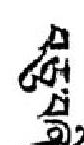བཅུ་བཞི་
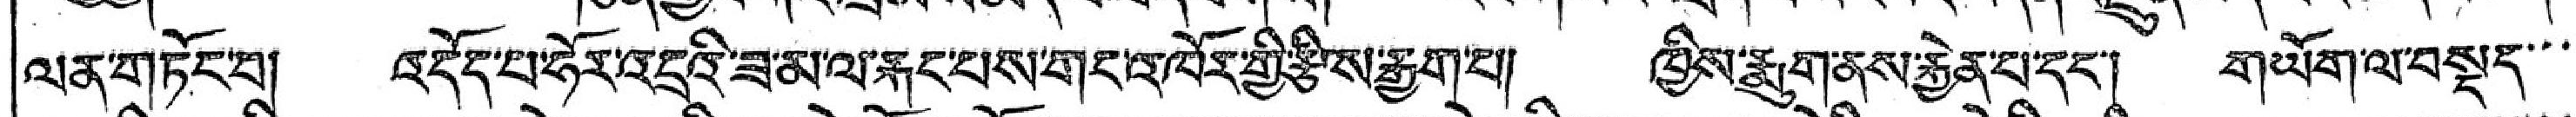ལན་གཏོང་བ། འདོད་པ་ཧོར་འདྲའི་ཟ་མ་ལ་རྐང་པས་གང་འཁོར་གྱི་རྩིས་རྒྱག་པ། ཁྱིས་རྨུག་ནས་རྐྱེན་པ་དང་། གཡོག་ལ་བསྡད་་་
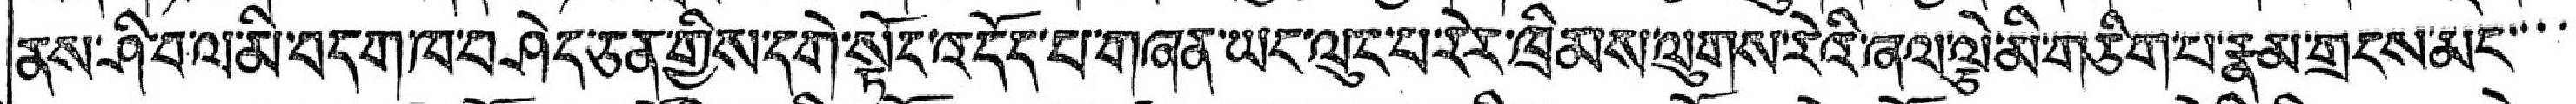ནས་ཤི་བ་ལ་མི་བདག་ཁ་བཤེད་ཅན་གྱིས་དགེ་སྟོང་འདོད་པ་གཞན་ཡང་ལུང་པ་རེར་ཁྲིམས་ལུགས་རེའི་ཞལ་ལྕེ་མི་གཅིག་པ་རྣམ་གྲངས་མང་་་་
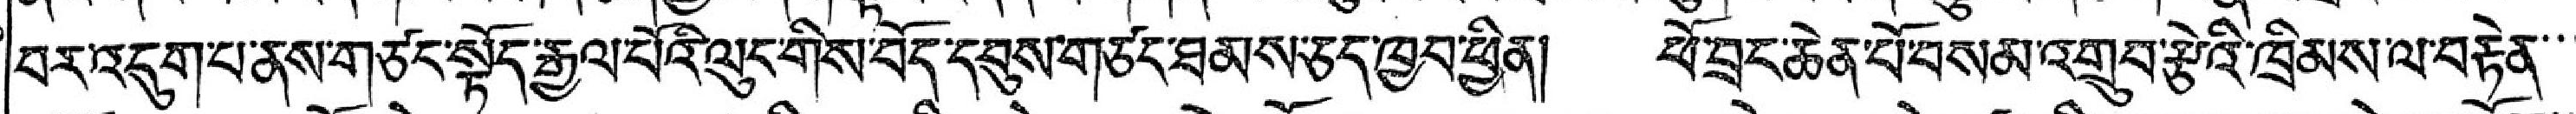བར་འདུག་པ་ནས་གཙང་སྟོད་རྒྱལ་པོའི་ལུང་གིས་བོད་དབུས་གཙང་ཐམས་ཅད་ཁྱབ་ཕྱིན། ཕོ་བྲང་ཆེན་པོ་བསམ་འགྲུབ་རྩེའི་ཁྲིམས་ལ་བརྟེན་་་
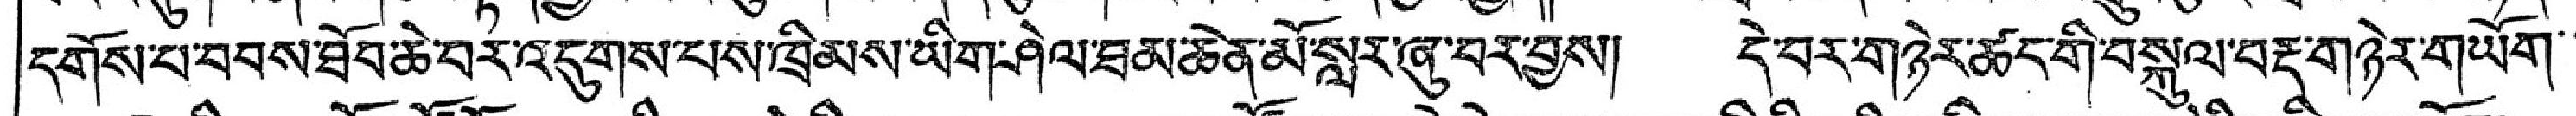དགོས་པ་བབས་ཐོབ་ཆེ་བར་འདུགས་པས་ཁྲིམས་ཡིག་ཤེལ་ཐམ་ཆེན་མོ་སླར་ཞུ་བར་བྱས། དེ་བར་གཉེར་ཚང་གི་བསྐུལ་བརྡ་གཉེར་གཡོག་་
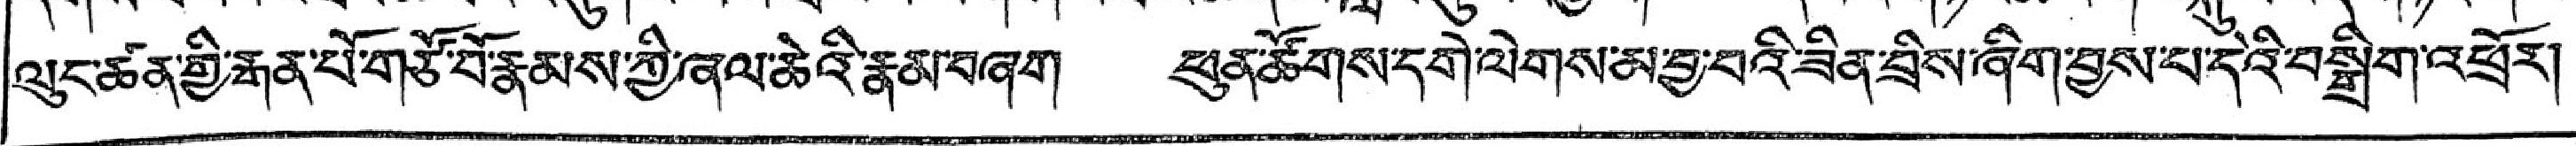ལུང་ཚན་གྱི་རྒན་པོ་གཙོ་བོ་རྣམས་ཀྱི་ཞལ་ཆེའི་རྣམ་བཞག ཕུན་ཚོགས་དགེ་ལེགས་མ་བྱ་བའི་ཟིན་བྲིས་ཞིག་བྱས་པ་དེའི་བསྒྲིག་འཕྲོར།
